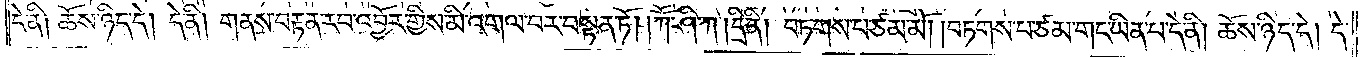དེ་ནི། ཆོས་ཉིད་དེ། དེ་ནི། གནས་བརྟན་རབ་འབྱོར་གྱིས་མི་འགལ་བར་བསྟན་ཏོ། །ཀཽ་ཤི་ཀ །དྲི་ནི། བཏགས་པ་ཙམ་མོ། །བཏགས་པ་ཙམ་གང་ཡིན་པ་དེ་ནི། ཆོས་ཉིད་དེ། དེ་
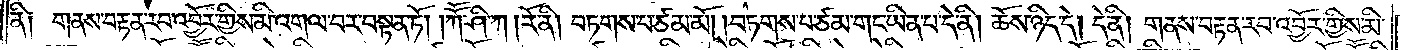ནི༑ གནས་བརྟན་རབ་འབྱོར་གྱིས་མི་འགལ་བར་བསྟན་ཏོ། །ཀཽ་ཤི་ཀ །རོ་ནི། བཏགས་པ་ཙམ་མོ། །བཏགས་པ་ཙམ་གང་ཡིན་པ་དེ་ནི། ཆོས་ཉིད་དེ། དེ་ནི། གནས་བརྟན་རབ་འབྱོར་གྱིས་མི་
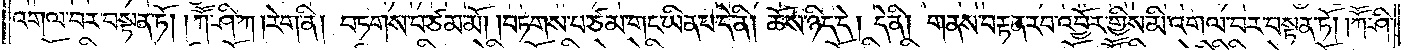འགལ་བར་བསྟན་ཏོ། །ཀཽ་ཤི་ཀ །རེག་ནི། བཏགས་པ་ཙམ་མོ། །བཏགས་པ་ཙམ་གང་ཡིན་པ་དེ་ནི། ཆོས་ཉིད་དེ། དེ་ནི། གནས་བརྟན་རབ་འབྱོར་གྱིས་མི་འགལ་བར་བསྟན་ཏོ། །ཀཽ་ཤི་
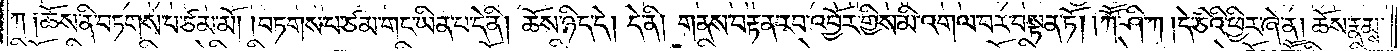ཀ །ཆོས་ནི་བཏགས་པ་ཙམ་མོ། །བཏགས་པ་ཙམ་གང་ཡིན་པ་དེ་ནི། ཆོས་ཉིད་དེ། དེ་ནི། གནས་བརྟན་རབ་འབྱོར་གྱིས་མི་འགལ་བར་བསྟན་ཏོ། །ཀཽ་ཤི་ཀ །དེ་ཅིའི་ཕྱིར་ཞེ་ན། ཆོས་རྣམས་
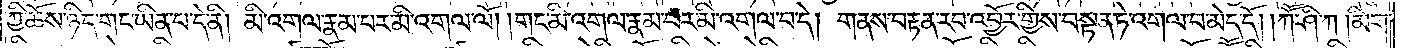ཀྱི་ཆོས་ཉིད་གང་ཡིན་པ་དེ་ནི། མི་འགལ་རྣམ་པར་མི་འགལ་ལོ། །གང་མི་འགལ་རྣམ་པར་མི་འགལ་བ་དེ། གནས་བརྟན་རབ་འབྱོར་གྱིས་བསྟན་དེ་འགལ་བ་མེད་དོ། །ཀཽ་ཤི་ཀ །མིག་
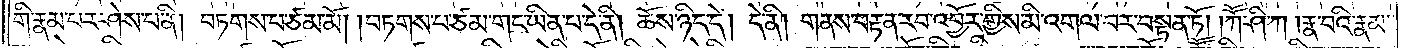གི་རྣམ་པར་ཤེས་པ་ནི། བཏགས་པ་ཙམ་མོ། །བཏགས་པ་ཙམ་གང་ཡིན་པ་དེ་ནི། ཆོས་ཉིད་དེ། དེ་ནི། གནས་བརྟན་རབ་འབྱོར་གྱིས་མི་འགལ་བར་བསྟན་ཏོ། །ཀཽ་ཤི་ཀ །རྣ་བའི་རྣམ་
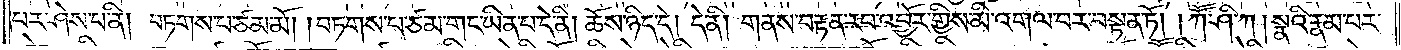པར་ཤེས་པ་ནི། བཏགས་པ་ཙམ་མོ། །བཏགས་པ་ཙམ་གང་ཡིན་པ་དེ་ནི། ཆོས་ཉིད་དེ། དེ་ནི། གནས་བརྟན་རབ་འབྱོར་གྱིས་མི་འགལ་བར་བསྟན་ཏོ། །ཀཽ་ཤི་ཀ །སྣའི་རྣམ་པར་
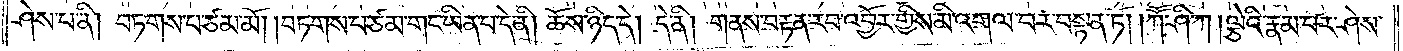ཤེས་པ་ནི། བཏགས་པ་ཙམ་མོ། །བཏགས་པ་ཙམ་གང་ཡིན་པ་དེ་ནི། ཆོས་ཉིད་དེ། དེ་ནི། གནས་བརྟན་རབ་འབྱོར་གྱིས་མི་འགལ་བར་བསྟན་ཏོ། །ཀཽ་ཤི་ཀ །ལྕེའི་རྣམ་པར་ཤེས་
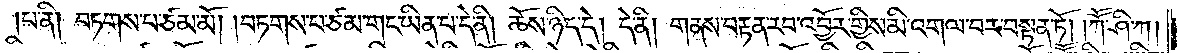པ་ནི། བཏགས་པ་ཙམ་མོ། །བཏགས་པ་ཙམ་གང་ཡིན་པ་དེ་ནི། ཆོས་ཉིད་དེ། དེ་ནི། གནས་བརྟན་རབ་འབྱོར་གྱིས་མི་འགལ་བར་བསྟན་ཏོ། །ཀཽ་ཤི་ཀ །
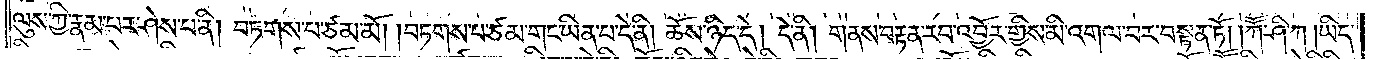ལུས་ཀྱི་རྣམ་པར་ཤེས་པ་ནི། བཏགས་པ་ཙམ་མོ། །བཏགས་པ་ཙམ་གང་ཡིན་པ་དེ་ནི། ཆོས་ཉིད་དེ། དེ་ནི། གནས་བརྟན་རབ་འབྱོར་གྱིས་མི་འགལ་བར་བསྟན་ཏོ། །ཀཽ་ཤི་ཀ །ཡིད་
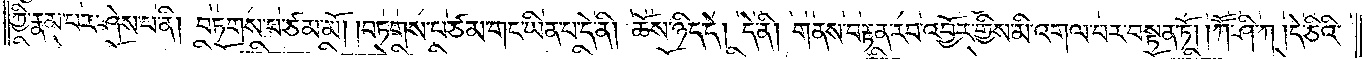ཀྱི་རྣམ་པར་ཤེས་པ་ནི། བཏགས་པ་ཙམ་མོ། །བཏགས་པ་ཙམ་གང་ཡིན་པ་དེ་ནི། ཆོས་ཉིད་དེ། དེ་ནི། གནས་བརྟན་རབ་འབྱོར་གྱིས་མི་འགལ་བར་བསྟན་ཏོ། །ཀཽ་ཤི་ཀ །དེ་ཅིའི་
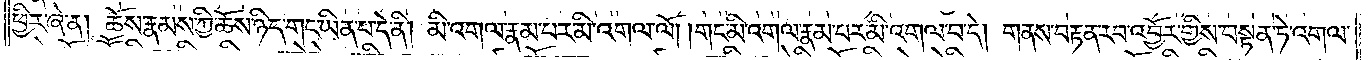ཕྱིར་ཞེ་ན། ཆོས་རྣམས་ཀྱི་ཆོས་ཉིད་གང་ཡིན་པ་དེ་ནི། མི་འགལ་རྣམ་པར་མི་འགལ་ལོ། །གང་མི་འགལ་རྣམ་པར་མི་འགལ་བ་དེ། གནས་བརྟན་རབ་འབྱོར་གྱིས་བསྟན་ཏེ་འགལ་
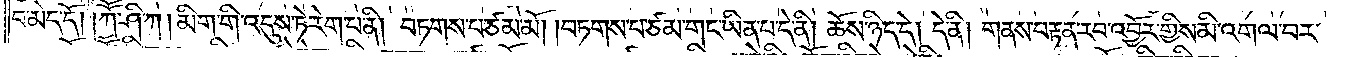བ་མེད་དོ། །ཀཽ་ཤི་ཀ །མིག་གི་འདུས་ཏེ་རེག་པ་ནི། བཏགས་པ་ཙམ་མོ། །བཏགས་པ་ཙམ་གང་ཡིན་པ་དེ་ནི། ཆོས་ཉིད་དེ། དེ་ནི། གནས་བརྟན་རབ་འབྱོར་གྱིས་མི་འགལ་བར་
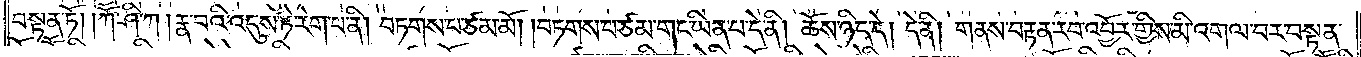བསྟན་ཏོ། །ཀཽ་ཤི་ཀ །རྣ་བའི་འདུས་ཏེ་རེག་པ་ནི། བཏགས་པ་ཙམ་མོ། །བཏགས་པ་ཙམ་གང་ཡིན་པ་དེ་ནི། ཆོས་ཉིད་དེ། དེ་ནི། གནས་བརྟན་རབ་འབྱོར་གྱིས་མི་འགལ་བར་བསྟན་
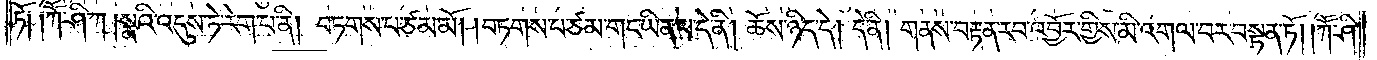ཏོ། །ཀཽ་ཤི་ཀ །སྣའི་འདུས་ཏེ་རེག་པ་ནི། བཏགས་པ་ཙམ་མོ། །བཏགས་པ་ཙམ་གང་ཡིན་པ་དེ་ནི། ཆོས་ཉིད་དེ། དེ་ནི། གནས་བརྟན་རབ་འབྱོར་གྱིས་མི་འགལ་བར་བསྟན་ཏོ། །ཀཽ་ཤི་
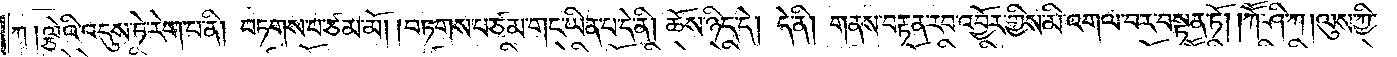ཀ །ལྕེའི་འདུས་ཏེ་རེག་པ་ནི། བཏགས་པ་ཙམ་མོ། །བཏགས་པ་ཙམ་གང་ཡིན་པ་དེ་ནི། ཆོས་ཉིད་དེ། དེ་ནི། གནས་བརྟན་རབ་འབྱོར་གྱིས་མི་འགལ་བར་བསྟན་ཏོ། །ཀཽ་ཤི་ཀ །ལུས་ཀྱི་
